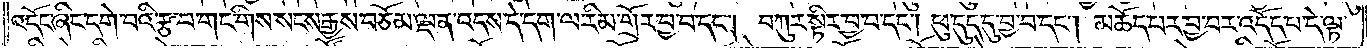འདོང་ཞིང་དགེ་པའི་རྩ་བ་གང་གིས་སངས་རྒྱས་བཅོམ་ལྡན་འདས་དེ་དག་ལ་རིམ་གྲོར་བྱ་བ་དང༌། བཀུར་སྟིར་བྱ་བ་དང༌། ཕུ་དུད་དུ་བྱ་བ་དང༌། མཆོད་པར་བྱ་བར་འདོད་པ་དེ་ལྟ་
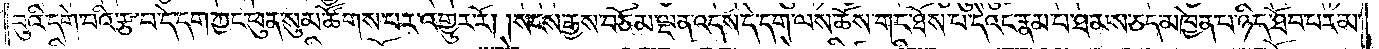བུའི་དགེ་བའི་རྩ་བ་དེ་དག་ཀྱང་ཕུན་སུམ་ཚོགས་པར་འགྱུར་རོ། །སངས་རྒྱས་བཅོམ་ལྡན་འདས་དེ་དག་ལས་ཆོས་གང་ཐོས་པ་དེའང་རྣམ་པ་ཐམས་ཅད་མཁྱེན་པ་ཉིད་ཐོབ་པར་མ་
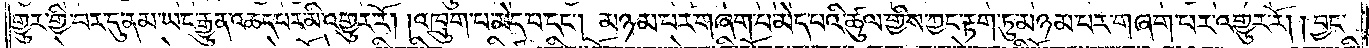གྱུར་གྱི་བར་དུ་ནམ་ཡང་རྒྱུན་ཆད་པར་མི་འགྱུར་རོ། །འཁྲུག་པ་མེད་པ་དང༌། མཉམ་པར་བཞག་པ་མེད་པའི་ཚུལ་གྱིས་ཀྱང་རྟག་ཏུ་མཉམ་པར་བཞག་པར་འགྱུར་རོ། །བྱང་
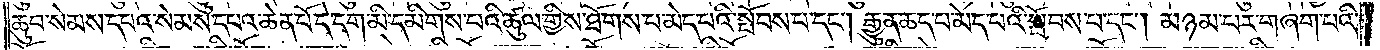ཆུབ་སེམས་དཔའ་སེམས་དཔའ་ཆེན་པོ་དེ་དག་མི་དམིགས་པའི་ཚུལ་གྱིས་ཐོགས་པ་མེད་པའི་སྤོབས་པ་དང༌། རྒྱུན་ཆད་པ་མེད་པའི་སྤོབས་པ་དང༌། མཉམ་པར་གཞག་པའི་
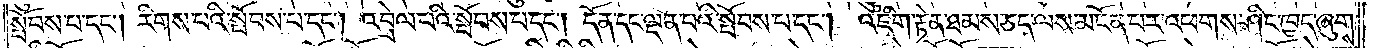སྤོབས་པ་དང༌། རིགས་པའི་སྤོབས་པ་དང༌། འབྲེལ་པའི་སྤོབས་པ་དང༌། དོན་དང་ལྡན་པའི་སྤོབས་པ་དང༌། འཇིག་རྟེན་ཐམས་ཅད་ལས་མངོན་པར་འཕགས་ཤིང་ཁྱད་ཞུགས་
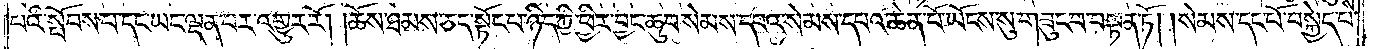པའི་སྤོབས་པ་དང་ཡང་ལྡན་པར་འགྱུར་རོ། །ཆོས་ཐམས་ཅད་སྟོང་པ་ཉིད་ཀྱི་ཕྱིར་བྱང་ཆུབ་སེམས་དཔའ་སེམས་དཔའ་ཆེན་པོ་ཡོངས་སུ་བཟུང་བ་བསྟན་ཏོ། །སེམས་དང་པོ་བསྐྱེད་པ་
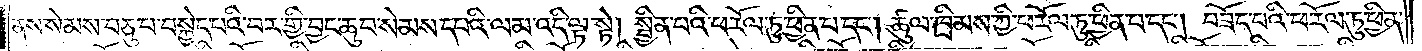ནས་སེམས་བཅུ་པ་བསྐྱེད་པའི་བར་གྱི་བྱང་ཆུབ་སེམས་དཔའི་ལམ་འདི་ལྟ་སྟེ། སྦྱིན་པའི་ཕ་རོལ་ཏུ་ཕྱིན་པ་དང༌། ཚུལ་ཁྲིམས་ཀྱི་ཕ་རོལ་ཏུ་ཕྱིན་པ་དང༌། བཟོད་པའི་ཕ་རོལ་ཏུ་ཕྱིན་
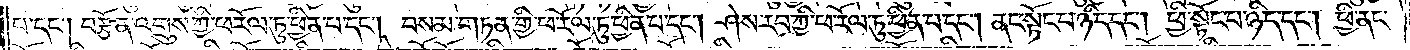པ་དང༌། བརྩོན་འགྲུས་ཀྱི་ཕ་རོལ་ཏུ་ཕྱིན་པ་དང༌། བསམ་གཏན་གྱི་ཕ་རོལ་ཏུ་ཕྱིན་པ་དང༌། ཤེས་རབ་ཀྱི་ཕ་རོལ་ཏུ་ཕྱིན་པ་དང༌། ནང་སྟོང་པ་ཉིད་དང༌། ཕྱི་སྟོང་པ་ཉིད་དང༌། ཕྱི་ནང་
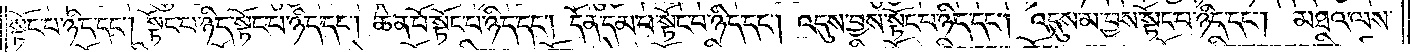སྟོང་པ་ཉིད་དང༌། སྟོང་པ་ཉིད་སྟོང་པ་ཉིད་དང༌། ཆེན་པོ་སྟོང་པ་ཉིད་དང༌། དོན་དམ་པ་སྟོང་པ་ཉིད་དང༌། འདུས་བྱས་སྟོང་པ་ཉིད་དང༌། འདུས་མ་བྱས་སྟོང་པ་ཉིད་དང༌། མཐའ་ལས་
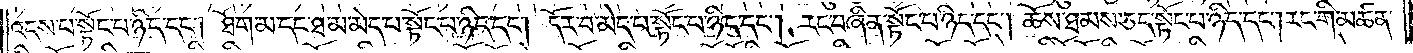འདས་པ་སྟོང་པ་ཉིད་དང༌། ཐོག་མ་དང་ཐ་མ་མེད་པ་སྟོང་པ་ཉིད་དང༌། དོར་བ་མེད་པ་སྟོང་པ་ཉིད་དང༌། རང་བཞིན་སྟོང་པ་ཉིད་དང༌། ཆོས་ཐམས་ཅད་སྟོང་པ་ཉིད་དང༌། རང་གི་མཚན་
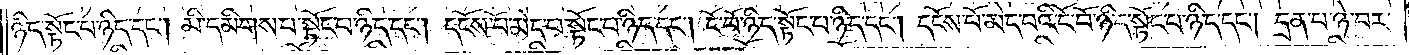ཉིད་སྟོང་པ་ཉིད་དང༌། མི་དམིགས་པ་སྟོང་པ་ཉིད་དང༌། དངོས་པོ་མེད་པ་སྟོང་པ་ཉིད་དང༌། ངོ་བོ་ཉིད་སྟོང་པ་ཉིད་དང༌། དངོས་པོ་མེད་པའི་ངོ་བོ་ཉིད་སྟོང་པ་ཉིད་དང༌། དྲན་པ་ཉེ་བར་
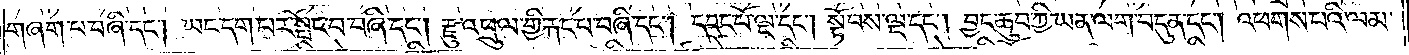གཞག་པ་བཞི་དང༌། ཡང་དག་པར་སྤོང་བ་བཞི་དང༌། རྫུ་འཕྲུལ་གྱི་རྐང་པ་བཞི་དང༌། དབང་པོ་ལྔ་དང༌། སྟོབས་ལྔ་དང༌། བྱང་ཆུབ་ཀྱི་ཡན་ལག་བདུན་དང༌། འཕགས་པའི་ལམ་
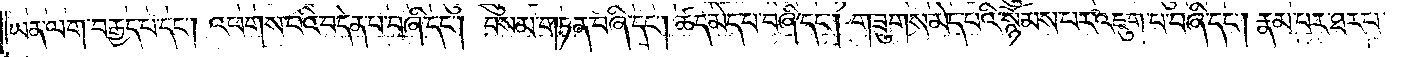ཡན་ལག་བརྒྱད་པ་དང༌། འཕགས་པའི་བདེན་པ་བཞི་དང༌། བསམ་གཏན་བཞི་དང༌། ཚད་མེད་པ་བཞི་དང༌། གཟུགས་མེད་པའི་སྙོམས་པར་འཇུག་པ་བཞི་དང༌། རྣམ་པར་ཐར་པ་
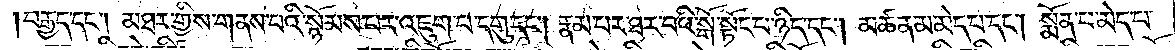བརྒྱད་དང༌། མཐར་གྱིས་གནས་པའི་སྙོམས་པར་འཇུག་པ་དགུ་དང༌། རྣམ་པར་ཐར་པའི་སྒོ་སྟོང་པ་ཉིད་དང༌། མཚན་མ་མེད་པ་དང༌། སྨོན་པ་མེད་པ་
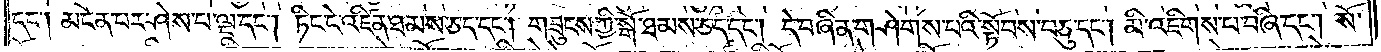དང༌། མངོན་པར་ཤེས་པ་ལྔ་དང༌། ཏིང་ངེ་འཛིན་ཐམས་ཅད་དང༌། གཟུངས་ཀྱི་སྒོ་ཐམས་ཅད་དང༌། དེ་བཞིན་གཤེགས་པའི་སྟོབས་བཅུ་དང༌། མི་འཇིགས་པ་བཞི་དང༌། སོ་
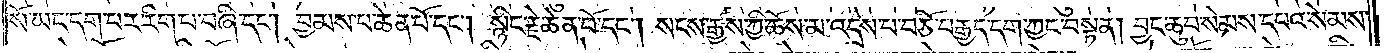སོ་ཡང་དག་པར་རིག་པ་བཞི་དང༌། བྱམས་པ་ཆེན་པོ་དང༌། སྙིང་རྗེ་ཆེན་པོ་དང༌། སངས་རྒྱས་ཀྱི་ཆོས་མ་འདྲེས་པ་བཅོ་བརྒྱད་དག་ཀྱང་བསྟན། བྱང་ཆུབ་སེམས་དཔའ་སེམས་
